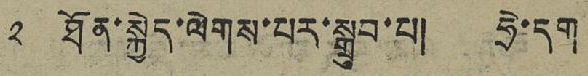༢ ཐོན་སྐྱེད་ལེགས་པར་སྒྲུབ་པ། ཧྲེ་དག
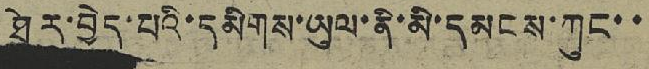ཐེར་བྱེད་པའི་དམིགས་ཡུལ་ནི་མི་དམངས་ཀུང་་
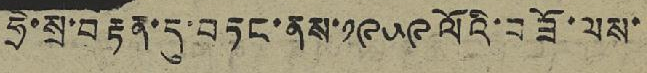ཧྲེ་སྲ་བརྟན་དུ་བཏང་ནས་ ༡༩༥༩ ལོའི་བཟོ་ལས་
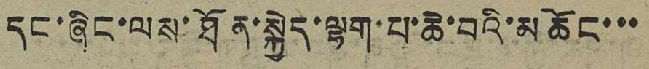དང་ཞིང་ལས་ཐོན་སྐྱེད་ལྷག་པ་ཆེ་བའི་མཆོང་་་
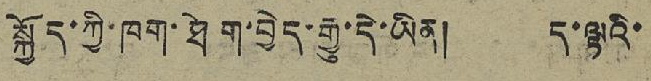སྐྱོད་ཀྱི་ཁག་ཐེག་བྱེད་རྒྱུ་དེ་ཡིན། ད་ལྟའི་
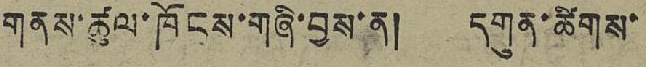གནས་ཚུལ་ཁོངས་གཞི་བྱས་ན། དགུན་ཚིགས་
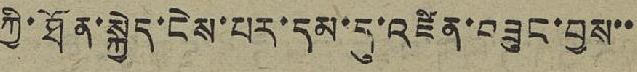ཀྱི་ཐོན་སྐྱེད་ངེས་པར་དམ་དུ་འཛིན་བཟུང་བྱས་་
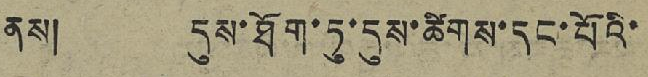ནས། དུས་ཐོག་ཏུ་དུས་ཚིགས་དང་པོའི་
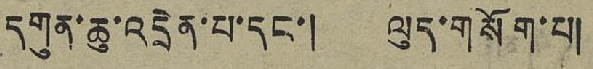དགུན་ཆུ་འདྲེན་པ་དང་། ལུད་གསོག་པ།
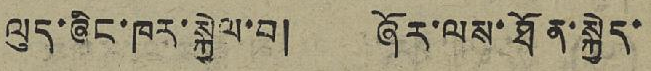ལུད་ཞིང་ཁར་སྐྱེལ་བ། ཞོར་ལས་ཐོན་སྐྱེད་
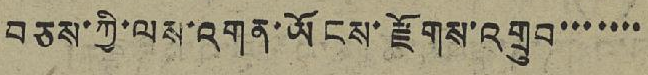བཅས་ཀྱི་ལས་འགན་ཡོངས་རྫོགས་འགྲུབ་་་་་་་
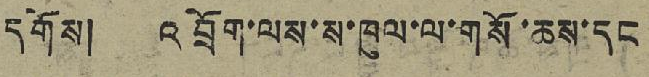དགོས། འབྲོག་ལས་ས་ཁུལ་ལ་གསོ་ཆས་དང
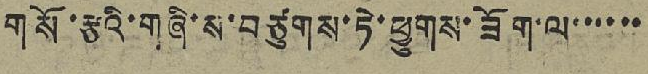གསོ་རྩའི་གཞི་ས་བཙུགས་ཏེ་ཕྱུགས་ཟོག་ལ་་་་་་
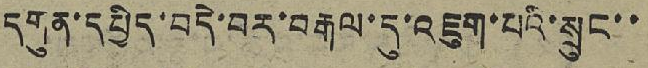དགུན་དཔྱིད་བདེ་བར་བརྒལ་དུ་འཇུག་པའི་སྲུང་་
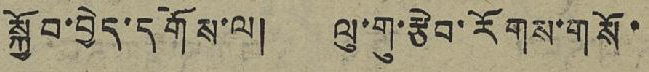སྐྱོབ་བྱེད་དགོས་ལ། ལུ་གུ་རྩེབ་རོགས་གསོ་
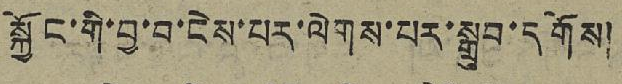སྐྱོང་གི་བྱ་བ་ངེས་པར་ལེགས་པར་སྒྲུབ་དགོས།
